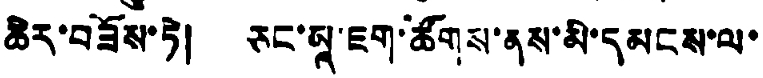ཆེར་བཟོས་ཏེ། ཅང་མཱ་ཇག་ཚོགས་ནས་མི་དམངས་ལ་
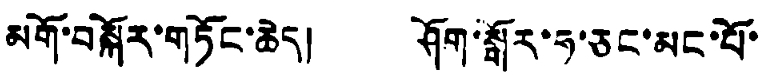མགོ་བསྐོར་གཏོང་ཆེད། ཤོག་སྒོར་ཧ་ཅང་མང་པོ་
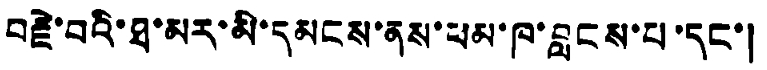བརྗེ་བའི་ཐ་མར་མི་དམངས་ནས་ཕམ་ཁ་བླངས་པ་དང་།
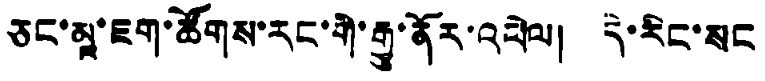ཅང་མཱ་ཇག་ཚོགས་རང་གི་རྒྱུ་ནོར་འཕེལ། དེ་རིང་སང
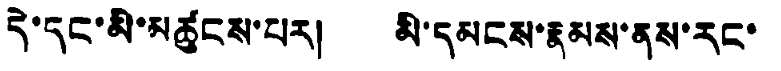དེ་དང་མི་མཚུངས་པར། མི་དམངས་རྣམས་ནས་རང་
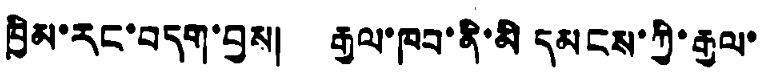ཁྱིམ་རང་བདག་བྱས། རྒྱལ་ཁབ་ནི་མི དམངས་ཀྱི་རྒྱལ་
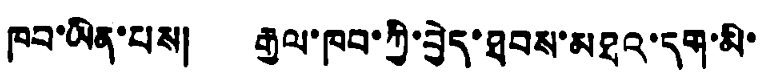ཁབ་ཡིན་པས། རྒྱལ་ཁབ་ཀྱི་བྱེད་ཐབས་མཐའ་དག་མི་
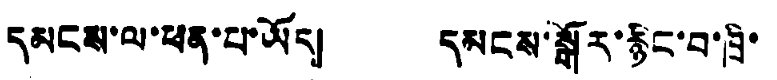དམངས་ལ་ཕན་པ་ཡོད། དམངས་སྒོར་རྙིང་བ་ཁྲི་
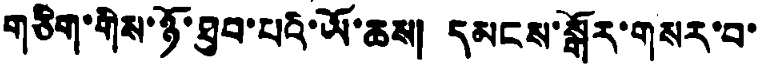གཅིག་གིས་ཉོ་ཐུབ་པའི་ཡོ་ཆས། དམངས་སྒོར་གསར་བ་
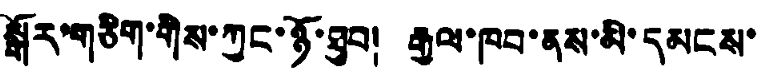སྒོར་གཅིག་གིས་ཀྱང་ཉོ་ཐུབ། རྒྱལ་ཁབ་ནས་མི་དམངས་
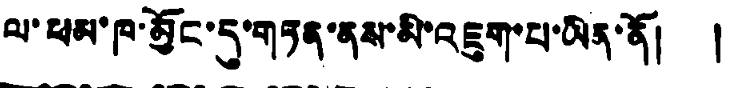ལ་ཕམ་ཁ་མྱོང་དུ་གཏན་ནས་མི་འཇུག་པ་ཡིན་ནོ། །
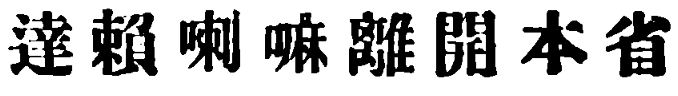達賴喇嘛離開本省
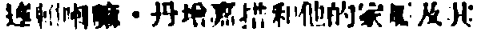達賴喇嘛・丹增嘉措和他的家屬及其
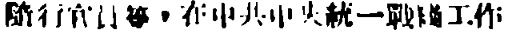隨行官員等，在中共中央統一站綫工作
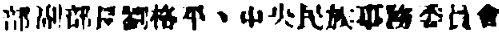部副部長劉格平、中央民族事務委員會
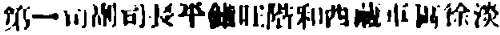第一司副司長平錯旺階和西藏軍區徐淡
